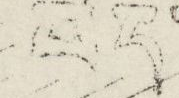བོད་
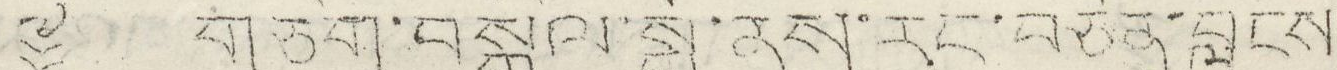༈ གཅིག་བསྒྲིལ་སྒོ་ནས་རང་བཙན་བླངས
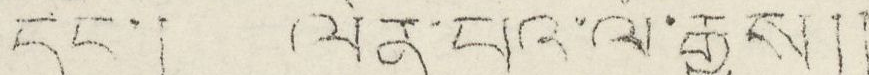དང་། ལེན་པའི་ལོ་རྒྱུས།།
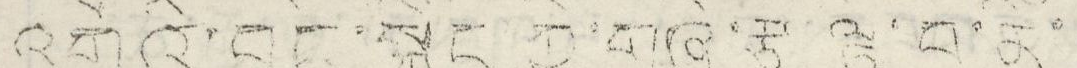འགྲོའི་བདེ་སྐྱིད ཀྱི་གཞི་རྩ་ལྟེ་བ་ནི་
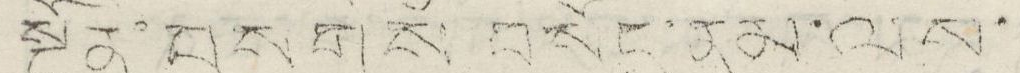སྔོན་བསགས བསོད་ནམ་ལས་
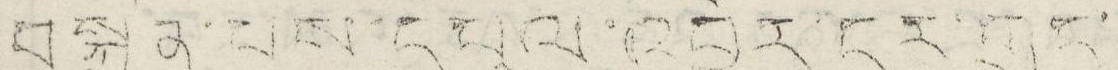བསྐྲུན་པས་དཔལ་འབྱོར་དར་གུང་
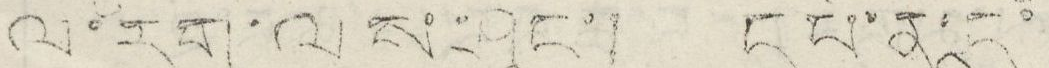ལ་རག་ལས་ཤིང་། དཔེ་ན་ད་
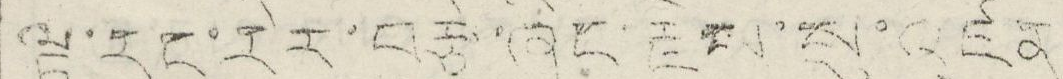ལྟ་རང་རེར་བརྩེ་ཞིང་རྗེས་སུ་འཛིན
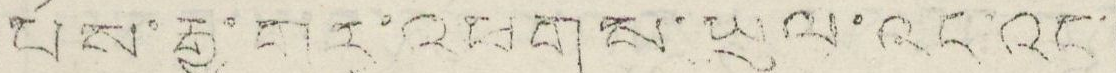པས་རྒྱ་གར་འཕགས་ཡུལ་འདི་འང་
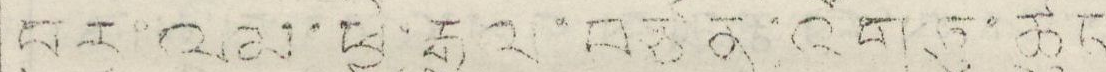པར་ལམ་ཕྱི་རྒྱལ་བཙན་འོག་ཏུ་ཚུད་
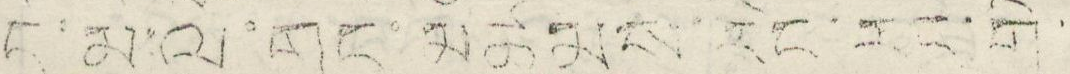དེ་མི་ལོ་གང་མཚམས་རིང་རང་གི་
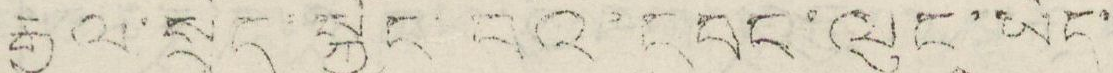རྒྱལ་སྲིད་སྒྱོང་བའི་དབང་ལུང་ཡོང་
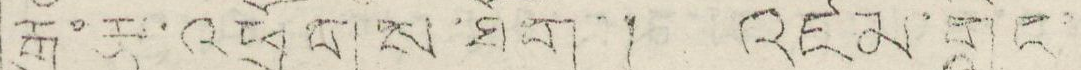རྒུ་རྩ་འཕྲོགས་ཐོག། །འཛམ་གླིང་
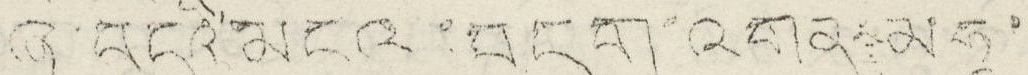ཞི་བདེའི་མངའ་བདག་འགན མཧཱ་
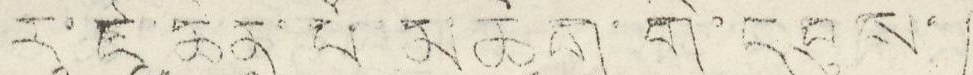རཱ་ཛཱ་ཆེན་པོ་མཆོག་གི་དབུས་།
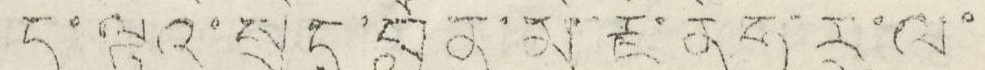ད་ལྟའི་སྲིད་བློན་མི་རྗེ་ནེཧ་རུ་ལ་
